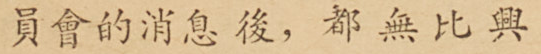員會的消息後，都無比興
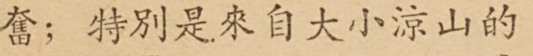奮；特別是來自大小涼山的
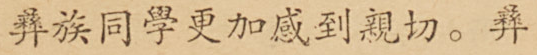彝族同學更加感到親切。彝
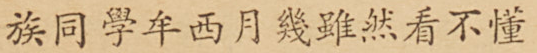族同學牟西月幾雖然看不懂
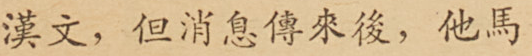漢文，但消息傳來後，他馬
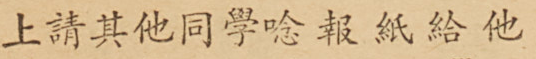上請其他同學唸報紙給他
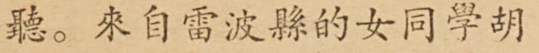聽。來自雷波縣的女同學胡
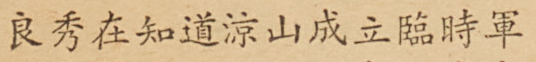良秀在知道涼山成立臨時軍
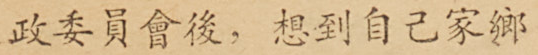政委員會後，想到自己家鄉
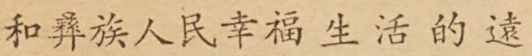和彝族人民幸福生活的遠
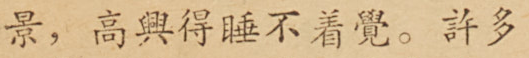景，高興得睡不着覺。許多
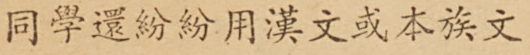同學還紛紛用漢文或本族文
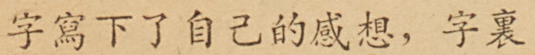字寫下了自己的感想，字裏
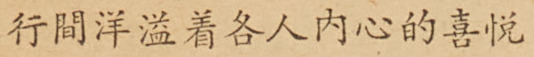行間洋溢着各人內心的喜悅
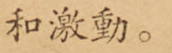和激動。
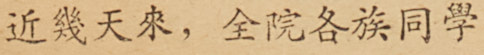近幾天來，全院各族同學
